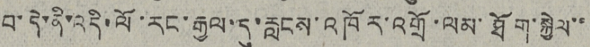བ་དེ་ནི་འདི་ལོ་རང་རྒྱལ་དུ་རླངས་འཁོར་འགྲོ་ལམ་ཐོག་སྐྱེལ་་
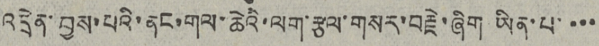འདྲེན་བྱས་པའི་ནང་གལ་ཆེའི་ལག་རྩལ་གསར་བརྗེ་ཞིག ཡིན་པ་་་་
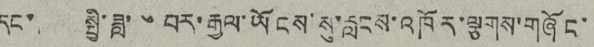དང་། སྤྱི་ཟླ་ ༦ བར་རྒྱལ་ཡོངས་སུ་རླངས་འཁོར་ལྕགས་གཞོང་
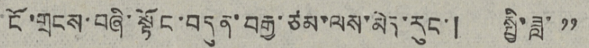ངོ་གྲངས་བཞི་སྟོང་བདུན་བརྒྱ་ཙམ་ལས་མེད་རུང་། སྤྱི་ཟླ་ ༡༡
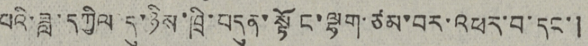པའི་ཟླ་དཀྱིལ དུ་ཉིས་ཁྲི་བདུན་སྟོང་ལྷག་ཙམ་བར་འཕར་བ་དང་།
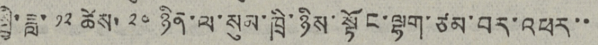སྤྱི་ཟླ་ ༡༢ ཚེས་ ༢༠ ཉིན་ལ་སུམ་ཁྲི་ཉིས་སྟོང་ལྷག་ཙམ་བར་འཕར་་
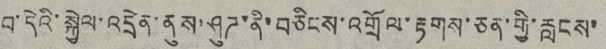བ་དེའི་སྐྱེལ་འདྲེན་ནུས་ཤུཌ་ནི་བཅིངས་འགྲོལ་རྟགས་ཅན་གྱི་རླངས་
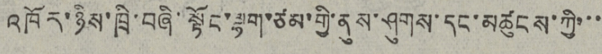འཁོར་ཉིས་ཁྲི་བཞི་སྟོང་ལྷག་ཙམ་གྱི་ནུས་ཤུགས་དང་མཚུངས་ཀྱི་་་
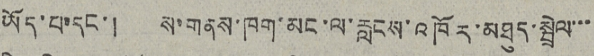ཡོད་པ་དང་། ས་གནས་ཁག་མང་ལ་རླངས་འཁོར་མཐུད་སྦྲེལ་་་
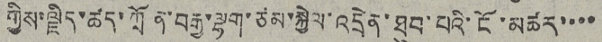ཀྱིས་ལྗིད་ཚད་ཀྲོན་བརྒྱ་ལྷག་ཙམ་སྐྱེལ་འདྲེན་ཐུབ་པའི་ངོ་མཚར་་་་
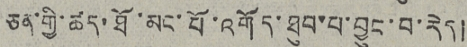ཅན་གྱི་ཚད་ཐོ་མང་པོ་འགོད་ཐུབ་པ་བྱུང་བ་རེད།
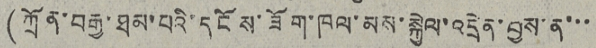(ཀྲོན་བརྒྱ་ཐམ་པའི་དངོས་ཟོག་ཁུལ་མས་སྐྱེལ་འདྲེན་བྱས་ན་་་
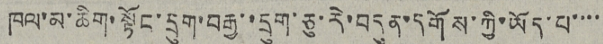ཁལ་མ་ཆིག་སྟོང་དྲུག་བརྒྱ་་དྲུག་ཅུ་རེ་བདུན་དགོས་ཀྱི་ཡོད་པ་་་་
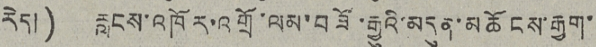རེད།) རླངས་འཁོར་འགྲོ་ལམ་བཟོ་རྒྱུའི་མདུན་མཆོངས་རྒྱག་
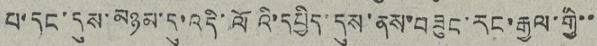པ་དང་དུས་མཉམ་དུ་འདི་ལོའི་དཔྱིད་དུས་ནས་བཟུང་རང་རྒྱལ་གྱི་་
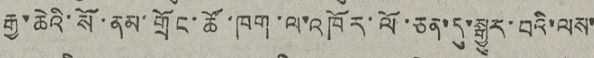རྒྱ་ཆེའི་སོ་ནམ་གྲོང་ཚོ་ཁག་ལ་འཁོར་ལོ་ཅན་དུ་སྒྱུར་བའི་ལས་
